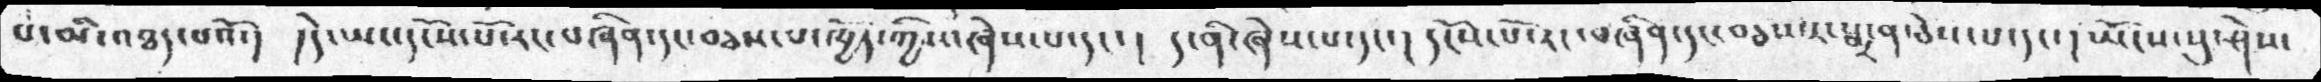པ་མི་འཐད་པའོ་།  །དེ་ཡང་དངོས་པོ་རང་བཞིན་དང་བཅས་པ་ཁྱོད་ཀྱིས་ཞེས་པ་དང་། ད་ནི་ཞེས་པ་དང་། དངོས་པོ་རང་བཞིན་དང་བཅས་པ་སྨྲ་ན་ཅེས་པ་དང་། ཡོངས་སུ་ཤེས་
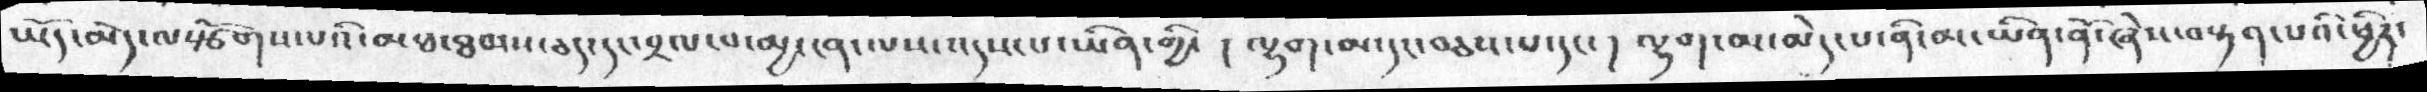ཡོད་མེད་ལསྩོགས་པའི་མཐ་ཐམས་ཅད་དང་བྲལ་བ་མྱ་ངན་ལས་འདས་པ་ཡིན་གྱི་ ། ལྷག་མ་དང་བཅས་པ་དང་། ལྷག་མ་མེད་པ་ནི་མ་ཡིན་ནོ་ཞེས་བསྟན་པའི་ཕྱིར་
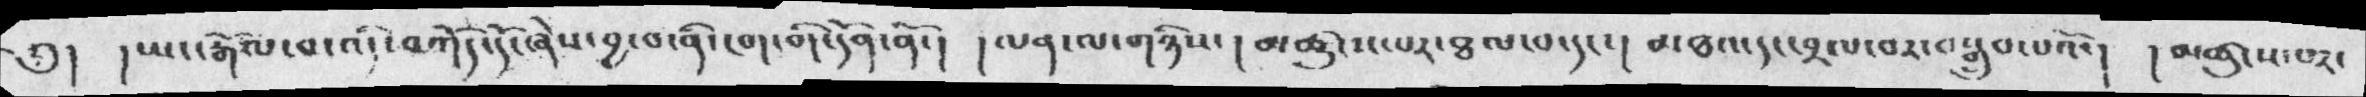༅།  །ཡང་རྒོལ་བ་འདི་བཀོད་དོ་ཞེས་བྱ་བ་ནི་ངག་གི་དོན་ནོ་།  །ལན་ལ་གཉིས་། མཚུངས་པར་ཐལ་བ་དང་། མཐའ་དང་བྲལ་བར་བསྒྲུབ་པའོ་། །མཚུངས་པར་
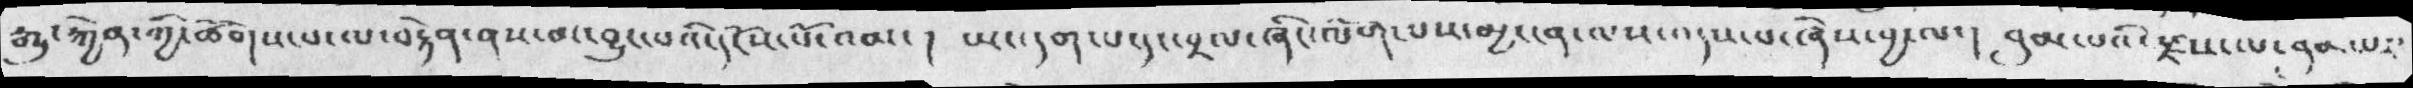རྒྱུ་རྐྱེན་ཀྱི་ཚོགས་པ་ལ་བརྟེན་ནས་མ་བྱུང་པའི་དངོས་པོ་འམ་། ཡང་དག་པ་དང་བྲལ་ཞིང་ལོག་པས་མྱ་ངན་ལས་འདས་པ་ཞེས་བྱ་ལ་། བུམ་པཔའི་རྫས་ལ་བུམ་པར་
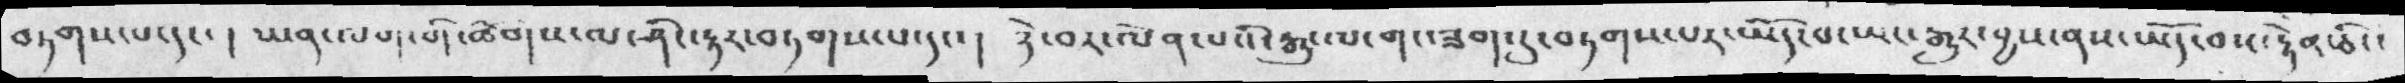བཏགས་པ་དང་། ཡན་ལག་གི་ཚོགས་ལ་ཤིང་རྟ་བཏགས་པ་དང་།  ཉེ་བར་ལེན་པའི་རྒྱུ་ལ་གང་ཟག་དུ་བཏགས་པར་ཡོད་པ་ཡང་རྒྱུར་བྱས་ནས་ཡོད་བས་རྟེན་ཅིང་
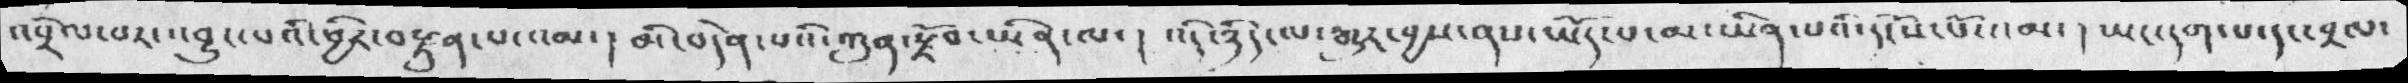འབྲེལ་བར་འབྱུང་པའི་ཕྱིར་བརྫུན་པ་འམ་།  མི་བདེན་པའི་ཀུན་རྫོབ་ཡིན་ལ་།  འདི་ཉིད་ལ་རྒྱུར་བྱས་ནས་ཡོད་པ་མ་ཡིན་པའི་དངོས་པོ་འམ་། ཡང་དག་པ་དང་བྲལ་
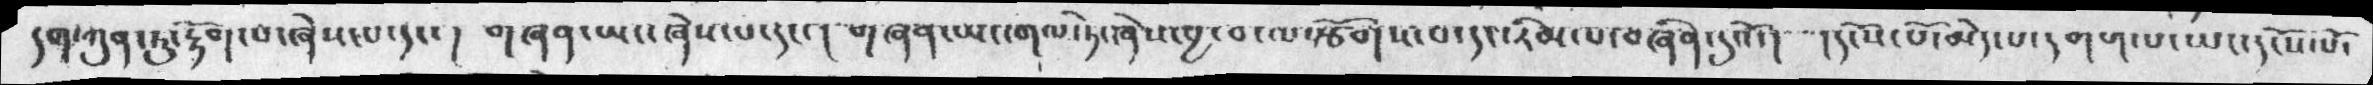དག་ཀུན་ཏུ་རྟོག་པ་ཞེས་པ་དང་།  གཞན་ཡང་ཞེས་པ་དང་། གཞན་ཡང་གལ་ཏེ་ཞེས་བྱ་བ་ལསྩོགས་པ་དང་རིམ་བཞིན་དུའོ་། །དངོས་པོ་མེད་པ་དགག་པ་ཡང་དངོས་པོ་
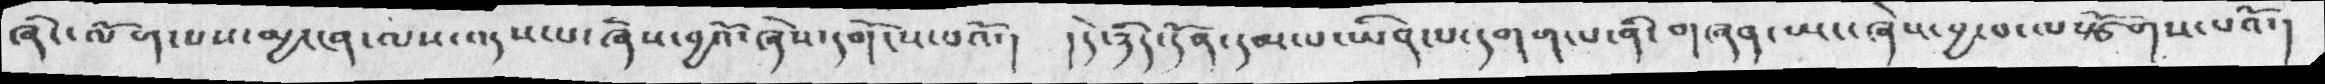ཞིང་ལོག་པས་མྱ་ངན་ལས་འདས་པ་ཞེས་བྱའོ་ཞེས་དགོངས་པའོ་།  །དེ་ཉིད་དོན་དམ་པ་ཡིན་པ་དགག་པ་ནི་གཞན་ཡང་ཞེས་བྱ་བ་ལསྩོགས་པའོ་།
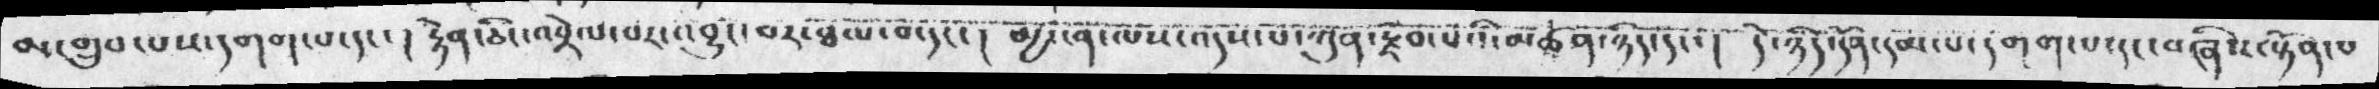མ་གྲུབ་པས་དགག་པ་དང་། རྟེན་ཅིང་འབྲེལ་བར་འབྱུང་བར་ཐལ་བ་དང་། མྱ་ངན་ལས་འདས་པ་ཀུན་རྫོབ་པའི་མཚན་ཉིད་དང་། དེ་ཉིད་དོན་དམ་པ་དགག་པ་དང་བཞིས་སྟོན་པ
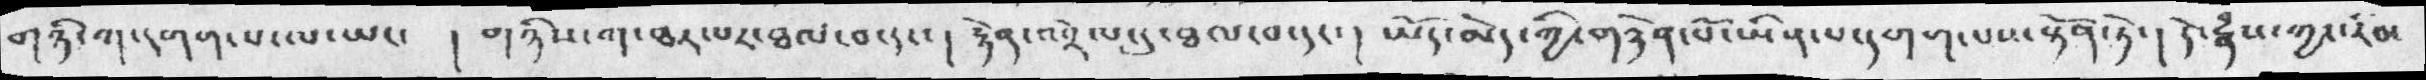གཉི་ཀ་དགག་པ་ལ་ཡང་  ། གཉིས་ཀ་ཐར་པར་ཐལ་བ་དང་།  རྟེན་འབྲེལ་དུ་ཐལ་བ་དང་། ཡོད་མེད་ཀྱི་གཉེན་པོ་ཡིན་པ་དགག་པས་སྟོན་ཏེ་། དེ་རྣཾས་ཀྱང་རིམ
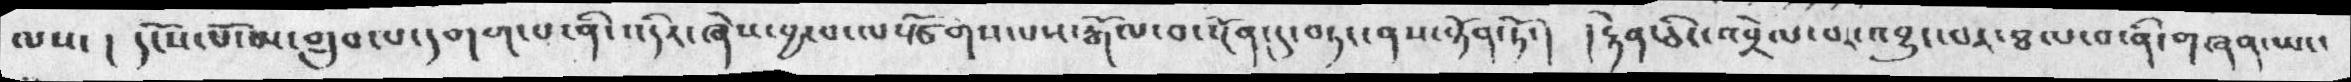ལས་། དངོས་པོ་མ་གྲུབ་པ་དགག་པ་ནི་འདིར་ཞེས་བྱ་བ་ལསྩོགས་པས་རྒོལ་བ་སྔོན་དུ་བཏང་ནས་སྟོན་ཏོ་། །རྟེན་ཅིང་འབྲེལ་བ་འབྱུང་པར་ཐལ་བ་ནི་གཞན་ཡང་
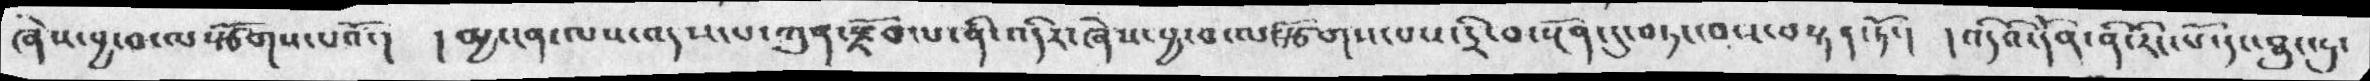ཞེས་བྱ་བ་ལསྩོགས་པའོ་།  །མྱ་ངན་ལས་འདས་པ་ཀུན་རྫོབ་པ་ནི་འདིར་ཞེས་བྱ་བ་ལསྩོགས་པས་དྲི་བ་སྔོན་དུ་བཏང་བས་བསྟན་ཏོ་། །འདིའི་དོན་ནི་རིང་པོ་དང་ཐུང་ངུ་
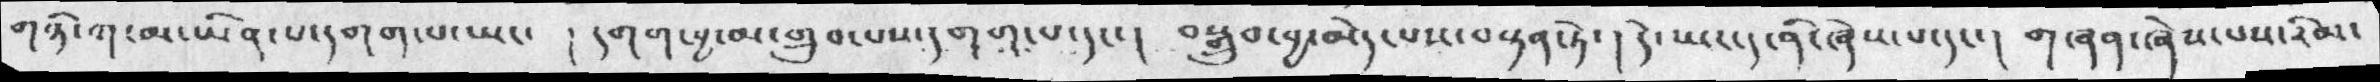གཉི་ཀ་མ་ཡིན་པ་དགག་པ་ཡང་  །དགག་བྱ་མ་གྲུབ་པས་དགག་པ་དང་།  བསྒྲུབ་བྱ་མེད་པས་བསྟན་ཏེ་། དེ་ཡང་ད་ནི་ཞེས་པ་དང་། གཞན་ཞེས་པས་རིམ་
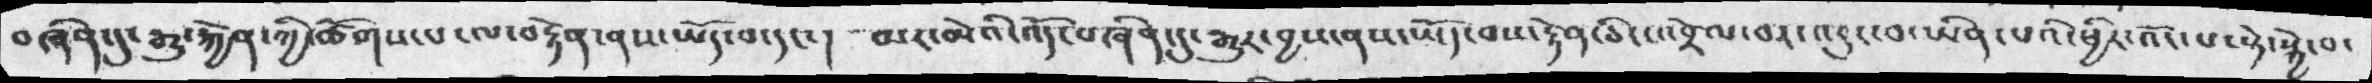བཞིན་དུ་རྒྱུ་རྐྱེན་ཀྱི་ཚོགས་པ་ལ་རྟེན་ནས་ཡོད་བ་དང་།  མར་མེའི་འོད་བཞིན་དུ་རྒྱུར་བྱས་ནས་ཡོད་བས་རྟེན་ཅིང་འབྲེལ་བར་འབྱུང་བ་ཡིན་པའི་ཕྱིར་འོང་པ་སྟེ་སྐྱེ་བ་
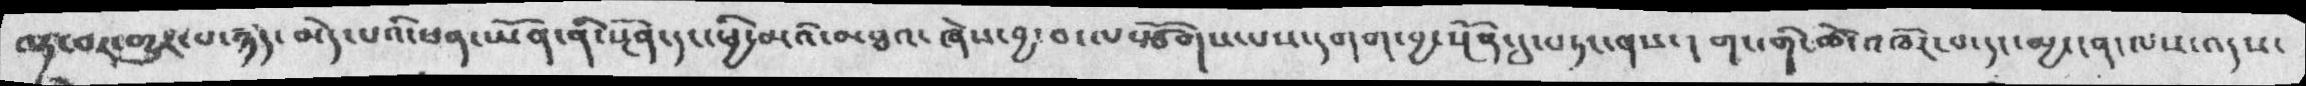ལྟ་བར་གྱུར་པ་ཉད་མེད་པའི་ཕན་ཡོན་ནི་སྔོན་དང་ཕྱི་མའི་མཐའ་ཞེས་བྱ་བ་ལསྩོགས་པས་དགག་བྱ་སྔོན་དུ་བཏང་ནས་། གང་གི་ཚེ་འཁོར་བ་དང་མྱ་ངན་ལས་འདས་
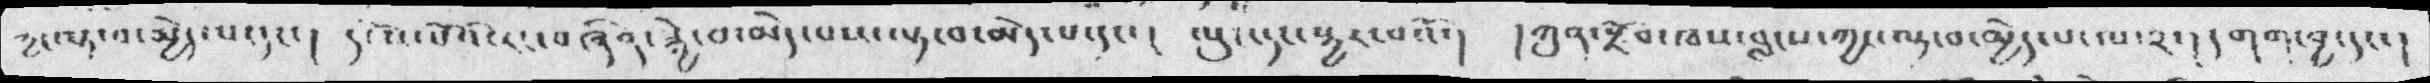ཀྱང་ལྟ་བ་མྱེད་པ་དང་། དངོས་པོའི་རང་བཞིན་སྐྱེ་བ་མེད་པས་ལྟ་བ་མེད་པ་དང་། ལུང་དང་སྱར་བའོ་།  །ཀུན་རྫོབ་ཁས་བླངས་ཀྱང་ལྟ་བ་མྱེད་པ་ལ་༢་། དགག་བྱ་དང་།
